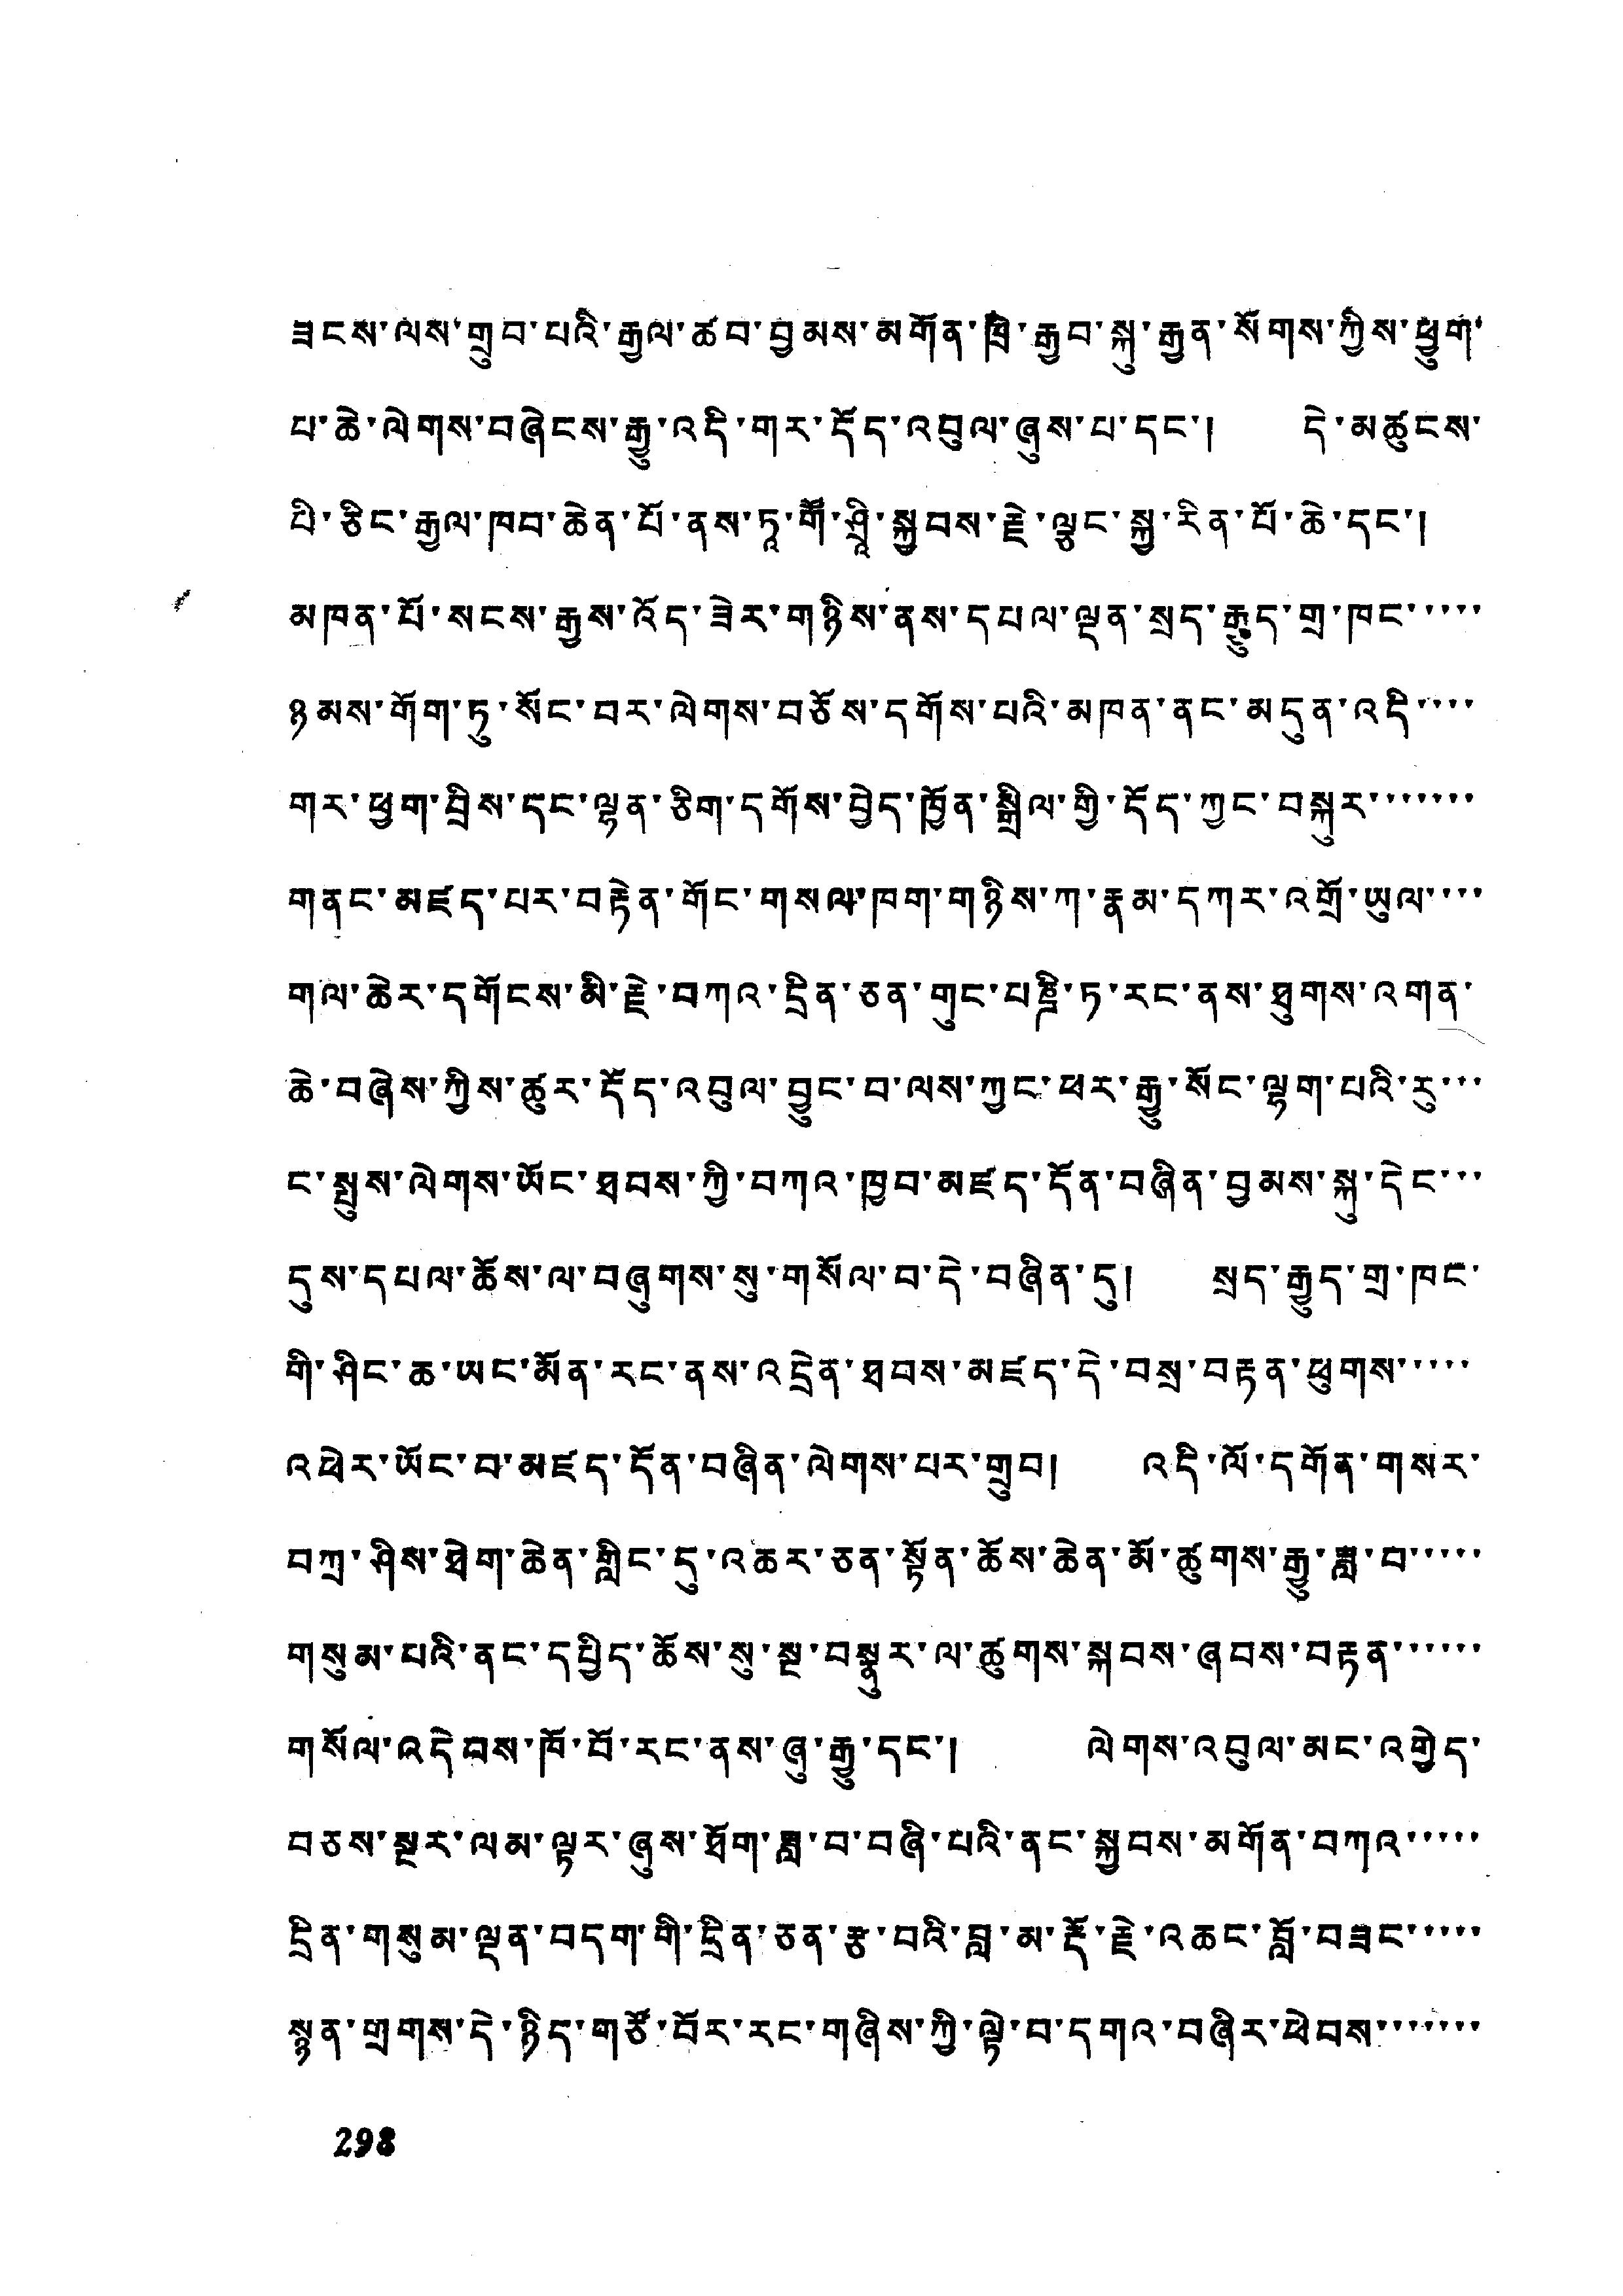ཟངས་ལས་གྲུབ་པའི་རྒྱལ་ཚབ་བྱམས་མགོན་ཁྲི་རྒྱབ་སྐུ་རྒྱན་སོགས་ཀྱིས་ཕྱུག་
པ་ཆེ་ལེགས་བཞེངས་རྒྱུ་འདི་གར་དོད་འབུལ་ཞུས་པ་དང་། དེ་མཚུངས་
པི་ཅིང་རྒྱལ་ཁབ་ཆེན་པོ་ནས་ཏཱ་གོོ་ཤྲཱི་་སྐྱབས་རྗེ་ལྕང་སྐྱ་རིན་པོ་ཆེ་དང་།
མཁན་པོ་སངས་རྒྱས་འོད་ཟེར་གཉིས་ནས་དཔལ་ལྡན་སྲད་རྒྱུད་གྲ་ཁང་་་་་
ཉམས་གོག་ཏུ་སོང་བར་ལེགས་བཅོས་དགོས་པའི་མཁན་ནང་མདུན་འདི་་་་
གར་ཕྱག་བྲིས་དང་ལྷན་ཅིག་དགོས་བྱེད་ཁྱོན་སྒྲིལ་གྱི་དོད་ཀྱང་བསྐུར་་་་་་་
གནང་མཛད་པར་བརྟེན་གོང་གསལ་ཁག་གཉིས་ཀ་རྣམ་དཀར་འགྲོ་ཡུལ་་་་
གལ་ཆེར་དགོངས་མི་རྗེ་བཀའ་དྲིན་ཅན་གུང་པཎྜི་ཏ་རང་ནས་ཐུགས་འགན་
ཆེ་བཞེས་ཀྱིས་ཚུར་དོད་འབུལ་བྱུང་བ་ལས་ཀྱང་ཕར་རྒྱུ་སོང་ལྷག་པའི་རུ་་་
ང་སྤུས་ལེགས་ཡོང་ཐབས་ཀྱི་བཀའ་ཁྱབ་མཛད་དོན་བཞིན་བྱམས་སྐུ་དེང་་་
དུས་དཔལ་ཆོས་ལ་བཞུགས་སུ་གསོལ་བ་དེ་བཞིན་དུ། སྲད་རྒྱུད་གྲ་ཁང་
གི་ཤིང་ཆ་ཡང་མོན་རང་ནས་འདྲེན་ཐབས་མཛད་དེ་བསྲ་བརྟན་ཕུགས་་་་་
འཕེར་ཡོང་བ་མཛད་དོན་བཞིན་ལེགས་པར་གྲུབ། འདི་ལོ་དགོན་གསར་
བཀྲ་ཤིས་ཐེག་ཆེན་གླིང་དུ་འཆར་ཅན་སྟོན་ཆོས་ཆེན་མོ་ཚུགས་རྒྱུ་ཟླ་བ་་་་་
གསུམ་པའི་ནང་དཔྱིད་ཆོས་སུ་སྔ་བསྣུར་ལ་ཚུགས་སྐབས་ཞབས་བརྟན་་་་་་
གསོལ་འདེབས་ཁོ་བོ་རང་ནས་ཞུ་རྒྱུ་དང་། ལེགས་འབུལ་མང་འགྱེད་
བཅས་སྔར་ལམ་ལྟར་ཞུས་ཐོག་ཟླ་བ་བཞི་པའི་ནང་སྐྱབས་མགོན་བཀའ་་་་་
དྲིན་གསུམ་ལྡན་བདག་གི་དྲིན་ཅན་རྩ་བའི་བླ་མ་རྡོ་རྗེ་འཆང་བློ་བཟང་་་་་
སྙན་གྲགས་དེ་ཉིད་གཙོ་བོར་རང་གཞིས་ཀྱི་ལྟེ་བ་དགའ་བཞིར་ཕེབས་་་་་་་
298
